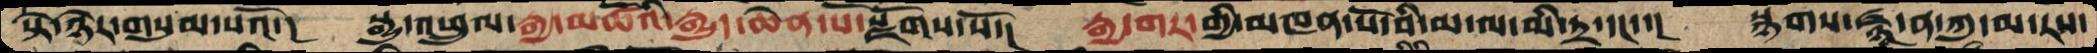སྟེ་ཉེར་གསུམ་པའོ་།  སྒྱུ་འཕྲུལ་རྒྱ་མཚོའི་རྒྱུད་ཆེན་པོ་སྫོགས་སོ་།  རྒྱ་གར་གྱི་མཁན་པོ་བི་མ་ལ་མི་ཏྲ་དང་་།  སྙགས་ཛྙྰ་ན་ཀུ་མ་རས་
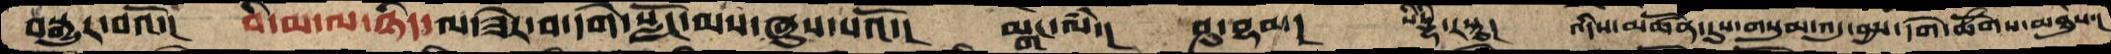བསྒྱུར་བའོ་།  བི་མ་ལ་ཉིད་ལ་ཟེར་བ་དགེ་སློང་མས་ཞུས་པའོ་།  མངྒལཾ་།  ཤུ་བྷམ།  སིདྡྷི་རསྟུ།  འདིས་མཚོན་དུས་གསུམ་འདུ་བྱས་དགེ་ཚོགས་མཐུས་།
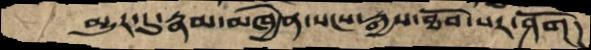མྱུར་དུ་རྣམ་མཁྱེན་སངས་རྒྱས་ཐོབ་པར་ཤོག།
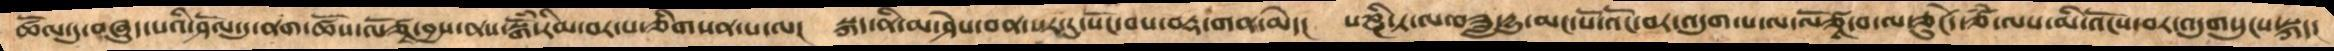ཚོལ་དུ་བཞུད་པའི་ཤོལ་དུ་ནག་ཚོས་ལོཙཱ་བྱས་ནས་སྒོཾ་རིམ་བར་པ་ཅིགསན་པ་ལ།  སྐད་ནི་མ་ཤེས་བན་སར་དུ་སོང་བས་བརྡ་གན་མེད།   པཎྜི་ཏ་ལ་བཟླ་དྱུ་མང་པོ་འོང་བར་འདུག་པ་ལ་ལོ་ཙཱ་བ་ལ་ཅུངདེ་ཙཾ་ལས་མི་འོངས་བར་འདུགསུངས་སྐད་།
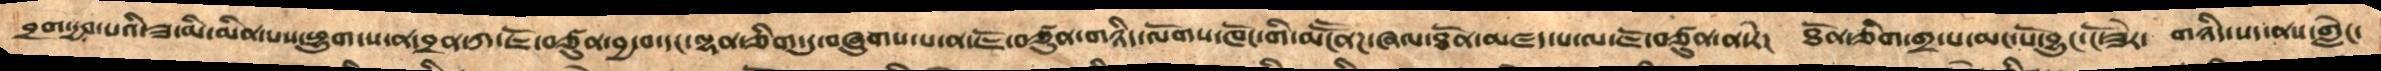བྲག་དྱབ་པའི་ཟ་མི་མིན་པས་ཕྱུག་ས་ན་བྲན་ཀ་ཇོ་བཙུན་བྱ་བ་དང་ལྷན་ཅིག་དུ་བཞུགས་པ་ན་ཇོ་བཙུན་གཉིད་ལོགས་ཁོང་གི་མངཽནཌ་ཞལ་ཐོན་མཛད་པ་ལ་ཇོ་བཙུན་ན་རེ།  ཐོན་ཅིག་གྲ་པ་མང་པོ་བྱུང་ངོ་ཟེར།  གཉིད་སད་ནས་གླེང་
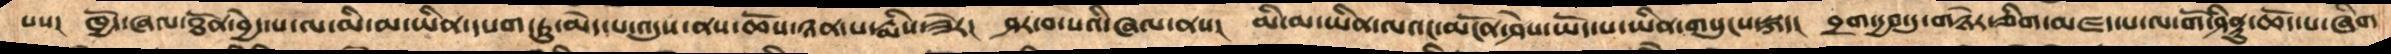པས།  ཁྱེད་ཞལ་ཐོན་བྱེད་པ་ལ་མི་མ་ཡིན་དཔག་ཏུ་མེད་པ་འདུས་ནས་ཆོས་ཉན་པ་རྨིས་ཟེར།  ཤར་བ་པའི་ཞལ་ནས།  མི་མ་ཡིན་ལའང་མངོན་ཤེས་ཡོད་པ་ཡིན་གསུང་སྐད།   བྲག་དྱབ་དུ་གཉེར་ཅིག་མཛད་པ་ལ་གོ་ཤིནྟུ་ཆོད་པ་ཞིག་
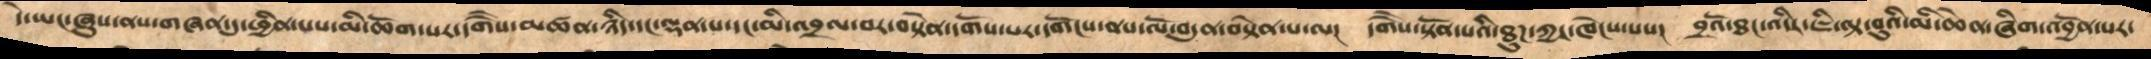དེ་ཡང་ཞུས་ནས་གཞན་དུ་ཕྱིན་པས་མི་ཆོག་པར་དགཻས་མཚན་ཉིད་དང་ལྡན་པ་དང་མི་འབྲལ་བར་བསྟེན་དགོས་པར་དགོངས་ནས་ལོ་བདུན་བསྟེན་པ་ལ།   དགཻས་སྟོན་པའི་ཐུཌ་ཀྱང་ཁེངས་པས།  བྲའོ་ཐང་འདིར་ཇི་ལྟ་བུའི་མི་ཆེན་ཞིག་འབྱོན་པར་
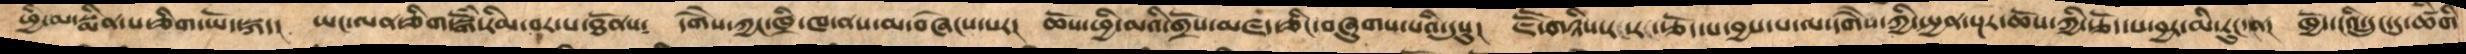ཕྱི་མ་སྨིན་པ་ཅིག་ཡོད་སྐད།   ཡང་ལན་ཅིག་སྒོཾ་རིམ་བར་པ་ཐོནས་  དགཻས་ཀྱང་ཁྲི་ཁ་ནས་མ་བཞེངས་པར།   ཆོས་ཕྱི་མའི་གྲོས་མཛད་ཅིང་བཞུགས་པའི་དུསུ།  ཇཽ་གཉིས་རང་རང་རྩོད་པ་བྱས་པ་ལ་དགཻས་ཀྱི་སྤྱན་སྔར་ཆོས་ཀྱི་རྩོད་པ་བྱར་མི་རུང་ན།   ཁྱོད་ངའི་དྲུང་དུ་ཚིགི
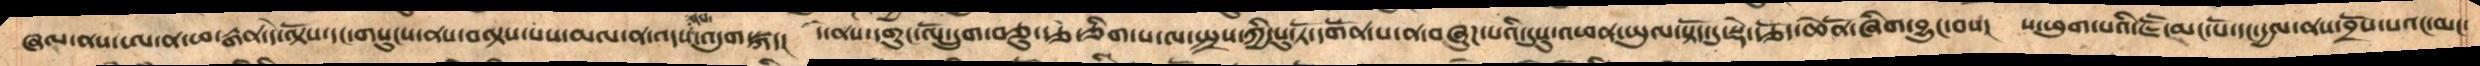ཞལ་ནས་ཨ་ན་ཕ་རྒན་དེ་ལྟོས་དང་གསུངས་ནས་བལྟས་པས་མལ་ན་འདས་འདུག་སྐད།    དེ་ནས་དགུང་ལོ་དྲུག་བཅུ་རྩ་ཅིག་པ་ལ་སྤྲས་ཀྱི་ོཔུ་ཏོ་དགོན་པ་ན་བཞུཌ་པའི་དུསུ་འཕན་ཡུལ་སྟོད་དུ་སྡེ་རྩོད་ཆེནོ་ཞིག་བྱུང་བས།   ས་ཕུག་པའི་ཇཽ་མང་པོ་དང་དྱལ་ནས་བྲོས་པའང་མང་
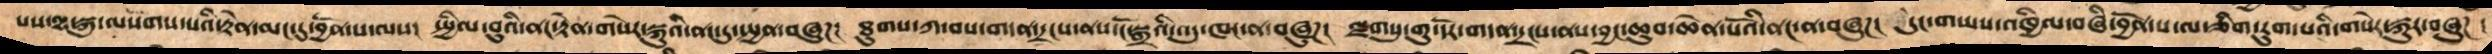པས་ལྷ་སྐུ་ལསོགས་པའི་རྟེན་མང་དུ་བྱོན་པ་ལས།  སྤྱིལ་བུའི་ནང་རྟེན་གསེར་སྐུའི་ནང་དུ་སྤྱན་བཞུཌ།  ཐུགས་ཀ་བས་གདན་དྲངས་ནས་ངོ་སྒྲའི་འདུ་ཁང་ན་བཞུཌ།  ལྗགསུ་གུ་དོར་གདན་དྲངས་ནས་བྱང་ཆུབ་ཆེན་པོའི་ནང་ན་བཞུཌ།  དུང་གཡས་འཁྱིལ་བཞི་བྱོན་པ་ལ་ཅིག་རུག་པའི་གསེར་སྐུར་བཞུཌ།
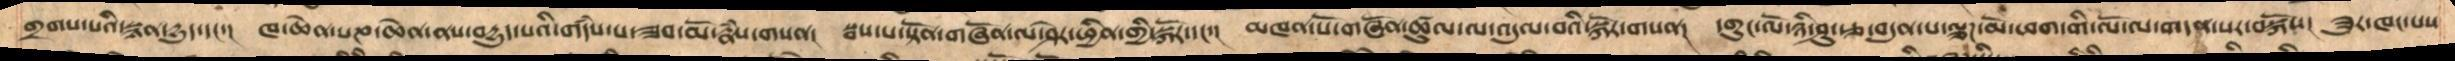གྲགས་པའི་སྙན་དྱུད་དང་།   ཁ་ཆེ་པཎ་ཆེན་ནས་བདྱུད་པའི་གདཾས་པ་ཟབ་མོ་རྣཾས་གསན།  སྦས་པ་སྟོན་གཞོན་ལ་ཤེར་ཕྱིན་གྱི་སྐོར་དང་།  མཁན་པོ་གཞོན་ཚུལ་ལ་འདུལ་བའི་སྐོར་གསན།  དགུང་ལོ་ཉི་ཤུ་རྩ་བདུན་པ་ལྕཌ་མོ་ཕག་གི་ལོ་ལ་གདན་སར་བསྐོས།  ཟུར་ཁང་པས་
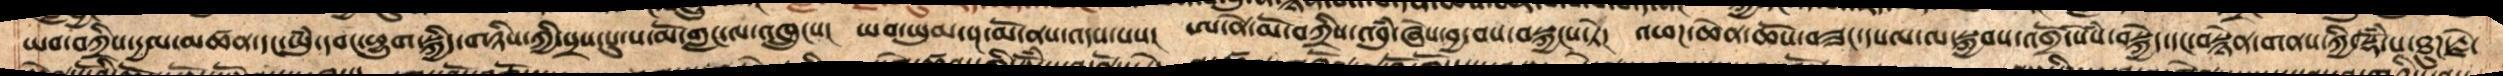ཡབ་བཀྲིས་དྱལ་མཚན་དང་ཡུམ་དབང་ཕྱུག་སྐྱིད་གཉིས་ཀྱི་སྲས་སུ་ས་མོ་གླང་ལ་འཁྲུངས།  ཡབ་ཡུམ་སྔ་མོ་ནས་འདས་པས།  ཨ་ནེ་མོ་བཀྲིས་འབུཾ་ཞེས་བྱ་བས་བསྐྱངས་ཏེ།  འཕཌ་ཆེན་ཆོས་བཟང་དཔལ་ལ་སྐྱབས་འགྲོ་སེཾས་བསྐྱེད་དང་བསྙེན་གནས་ཀྱི་སྡོཾ་པ་ཐུཌ་རྗེ་
